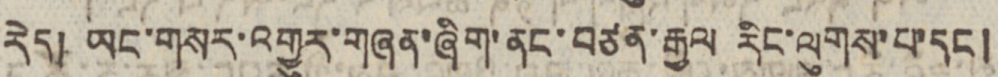རེད། ཡང་གསར་འགྱུར་གཞན་ཞིག་ནང་བཙན་རྒྱལ རིང་ལུགས་པ་དང།
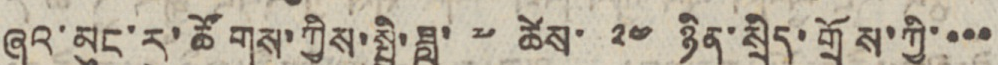ཞའ་མུང་རུ་ཚོགས་ཀྱིས་སྤྱི་ཟླ་ ༧ ཚེས་ ༢༤ ཉིན་སྲིད་གྲོས་ཀྱི་་་་
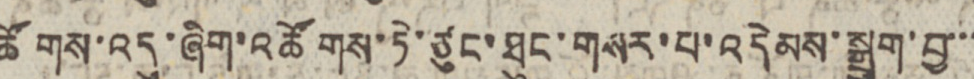ཚོགས་འདུ་ཞིག་འཚོགས་ཏེ་ཙུང་ཐུང་གསར་པ་འདེམས་སྒྲུག་བྱ་་་
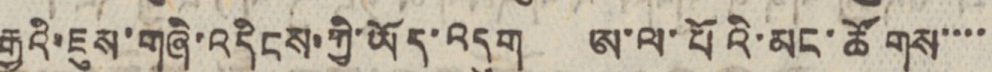རྒྱུའི་ཇུས་གཞི་འདིངས་ཀྱི་ཡོད་འདུག ཨ་ལ་པོའི་མང་ཚོགས་་་་
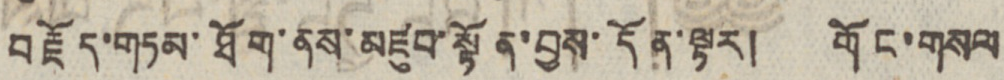བརྗོད་གཏམ་ཐོག་ནས་མཛུབ་སྟོན་བྱས་དོན་ལྟར། གོང་གསལ
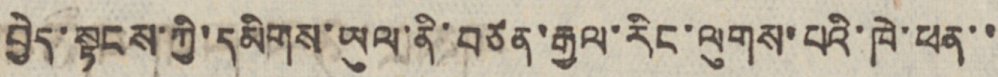བྱེད་སྟངས་ཀྱི་དམིགས་ཡུལ་ནི་བཙན་རྒྱལ་རིང་ལུགས་པའི་ཁེ་ཕན་་
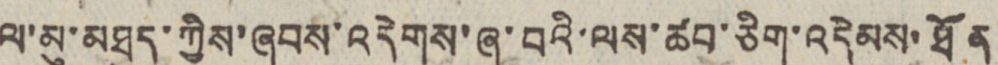ལ་མུ་མཐུད་ཀྱིས་ཞབས་འདེགས་ཞུ་བའི་ལས་ཚབ་ཅིག་འདེམས་ཐོན
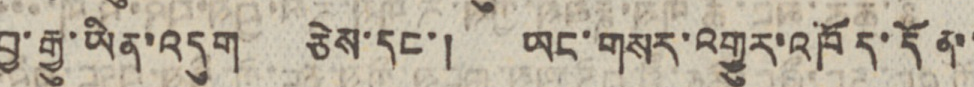བྱ་རྒྱུ་ཡིན་འདུག ཅེས་དང་། ཡང་གསར་འགྱུར་འཁོད་དོན་་
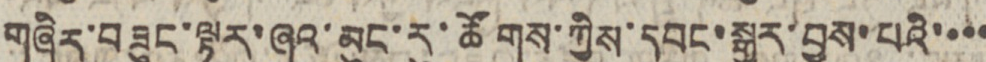གཞིར་བཟུང་ལྟར་ཞའ་མུང་རུ་ཚོགས་ཀྱིས་དབང་སྒྱུར་བྱས་པའི་་་་
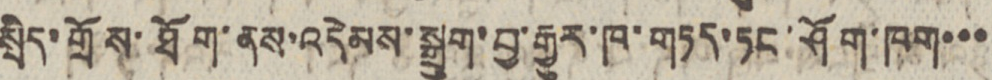སྲིད་གྲོས་ཐོག་ནས་འདེམས་སྒྲུག་བྱ་རྒྱུར་ཁ་གཏད་ཏང་ཤོག་ཁག་་་
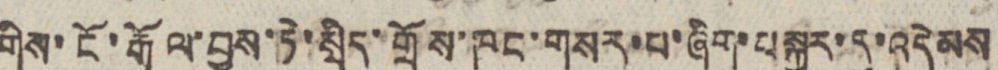གིས་ངོ་རྒོལ་བྱས་ཏེ་སྲིད་གྲོས་ཁང་གསར་པ་ཞིག་བསྐྱར་དུ་འདེམས
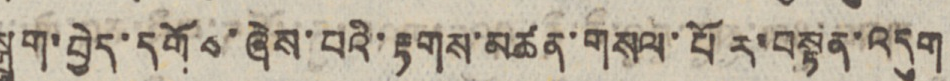སྒྲུག་བྱེད་དགོས་ཞེས་པའི་རྟགས་མཚན་གསལ་པོར་བསྟན་འདུག
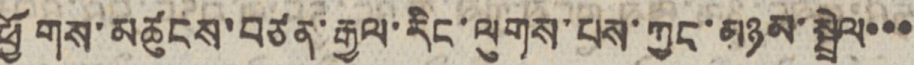ཕྱོགས་མཚུངས་བཙན་རྒྱལ་རིང་ལུགས་པས་ཀྱང་མཉམ་སྦྲེལ་་་
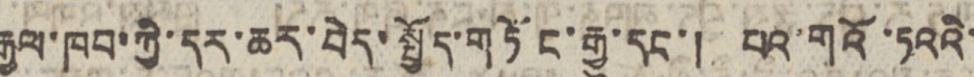རྒྱལ་ཁབ་ཀྱི་དར་ཆར་བེད་སྤྱོད་གཏོང་རྒྱུ་དང་། པའ་གའོ་ཏའའི་
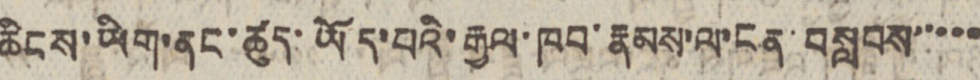ཆིངས་ཡིག་ནང་ཚུད་ཡོད་པའི་རྒྱལ་ཁབ་རྣམས་ལ་ངན་བསླབས་་་་་
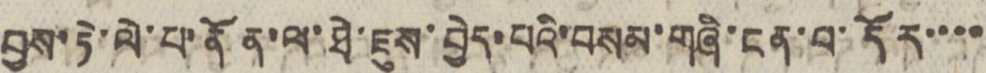བྱས་ཏེ་ལེ་པ་ནོན་ལ་ཐེ་ཇུས་བྱེད་པའི་བསམ་གཞི་ངན་པ་དོར་་་་
